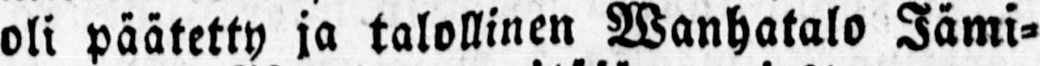oli päätetty ja talollinen Wanhatalo Jämi-
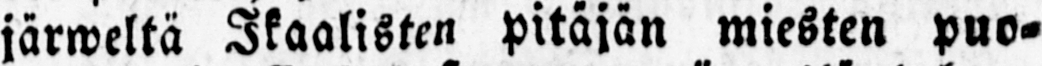järweltä Ikaalisten pitäjän miesten puo-
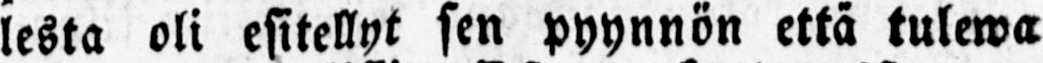lesta oli esitellyt sen pyynnön että tulewa
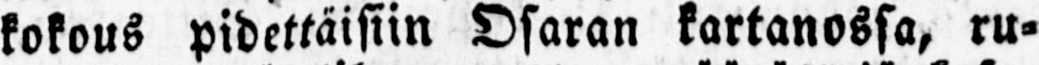kokous pidettäisiin Osaran kartanossa, ru-
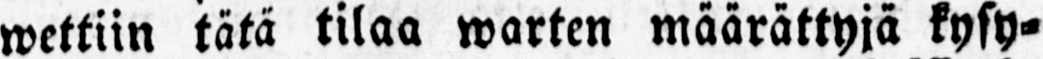wettiin tätä tilaa warten määrättyjä kysy-
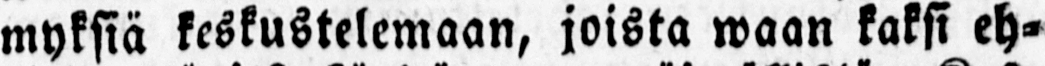myksiä keskustelemaan, joista waan kaksi eh-
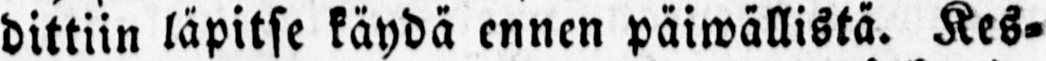dittiin läpitse käydä ennen päiwällistä. Kes-
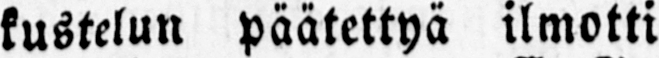kustelun päätettyä ilmotti puheenjohtaja,
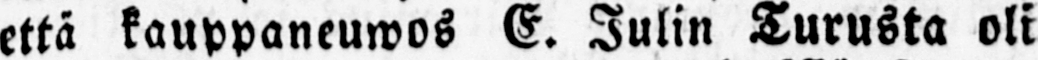että kauppaneuwos E. Julin Turusta oli
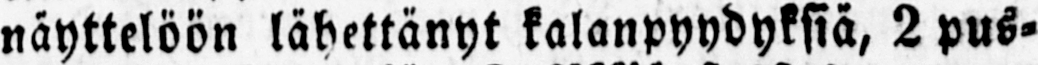näyttelöön lähettänyt kalanpyydyksiä, 2 pus-
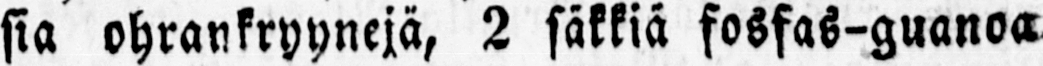sia ohrankryynejä, 2 säkkiä fosfas-guanoa
